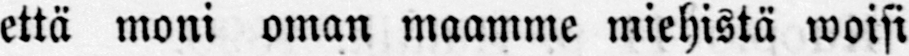että moni oman maamme miehistä woisi
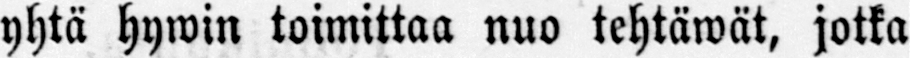yhtä hywin toimittaa nuo tehtäwät, jotka
